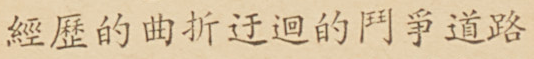經歷的曲折迂迴的鬥爭道路
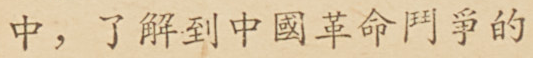中，了解到中國革命鬥爭的
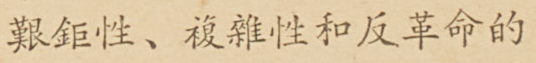艱鉅性、複雜性和反革命的
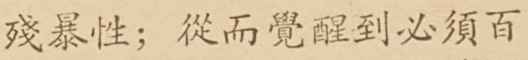殘暴性；從而覺醒到必須百
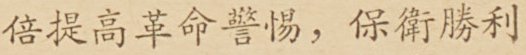倍提高革命警惕，保衛勝利
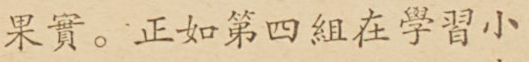果實。正如第四組在學習小
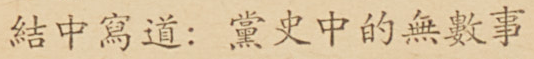結中寫道：黨史中的無數事
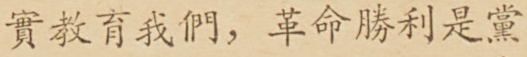實教育我們，革命勝利是黨
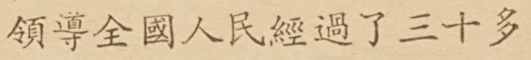領導全國人民經過了三十多
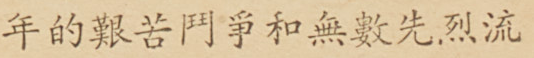年的艱苦鬥爭和無數先烈流
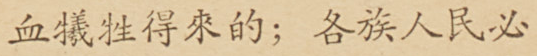血犧牲得來的；各族人民必
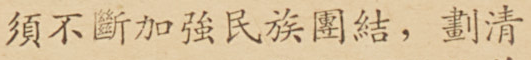須不斷加強民族團結，劃清
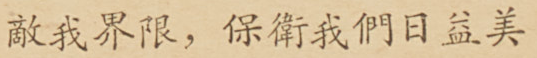敵我界限，保衛我們日益美
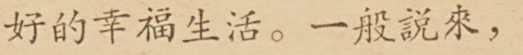好的幸福生活。一般說來，
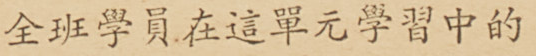全班學員在這單元學習中的
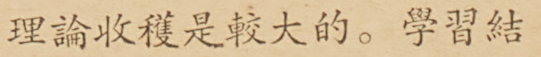理論收穫是較大的。學習結
